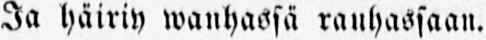Ja häiriy wanhassä rauhassaan.
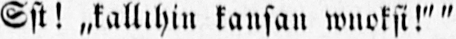Sst! „kallihin kansan wuoksi!""
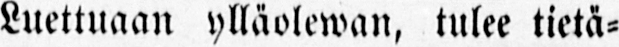Luettuaan ylläolewan, tulee tietä-
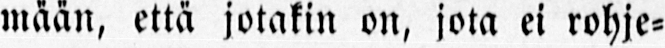mään, että jotakin on, jota ei rohje-
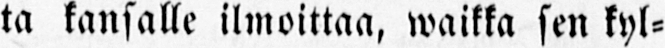ta kansalle ilmoittaa, waikka sen kyl-
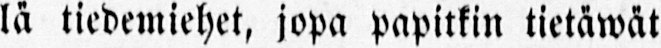lä tiedemiehet, jopa papitkin tietäwät
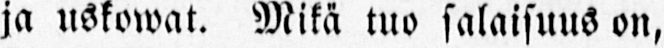ja uskoivat. Mikä tuo salaisuus on,
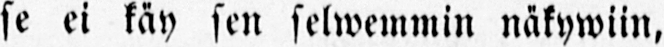se ei käy sen selwemmin näkywiin,
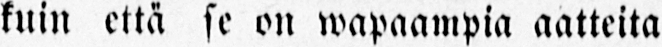kuin että se on wapaampia aatteita
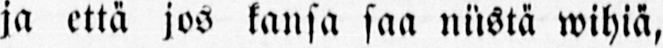ja että jos kansa saa niistä wihiä,
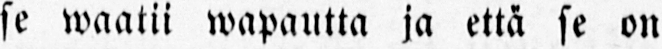se waatii wapautta ja että se on
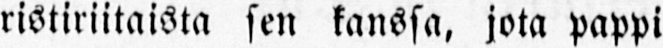ristiriitaista sen kanssa, jota pappi
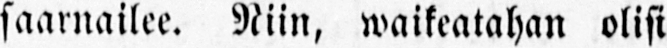saarnailee. Niin, waikeatahan olisi
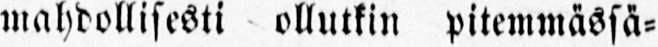mahdollisesti ollutkin pitemmässä-
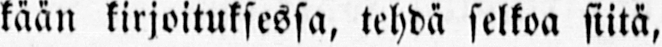kään kirjoituksessa, tehdä selkoa siitä,
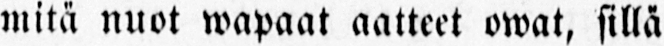mitä nuot wapaat aatteet owat, sillä
